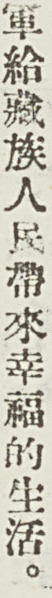軍給藏族人民帶來幸福的生活。
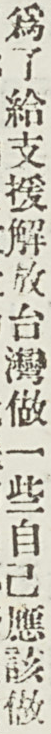爲了給支援解放台灣做一些自己應該做
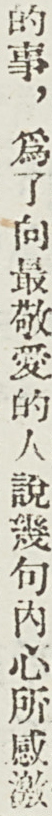的事，爲了向最敬愛的人說幾句內心所感激
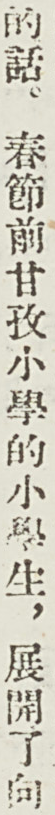的話。春節前甘孜小學的小學生，展開了向
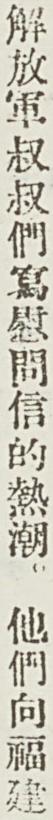解放軍叔叔們寫慰問信的熱潮。他們向福建
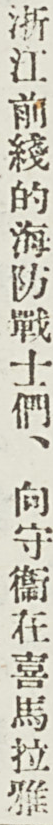浙江前綫的海防戰士們、向守衛在喜馬拉雅
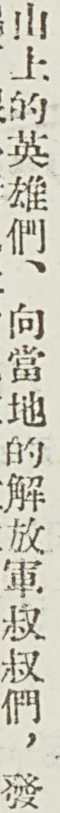山上的英雄們、向當地的解放軍叔叔們，發
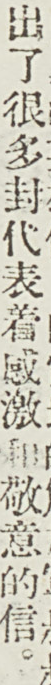出了很多封代表着感激和敬意的信。
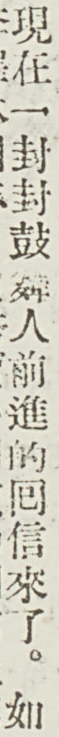現在一封封鼓舞人前進的囘信來了。如
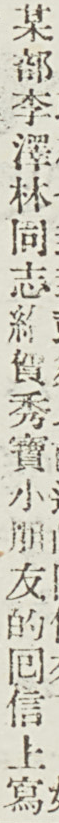某部李澤林同志給賀秀寶小朋友的囘信上寫
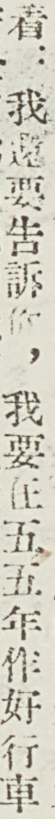着：我還要告訴你，我要在五五年作好行車
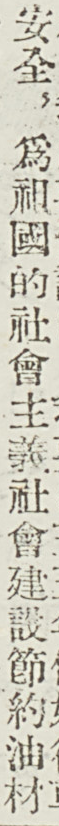安全，爲祖國的社會主義社會建設節約油材
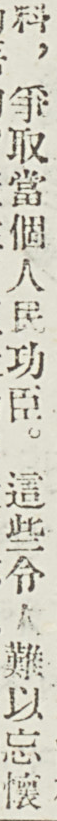料，爭取當個人民功臣。這些令人難以忘懷
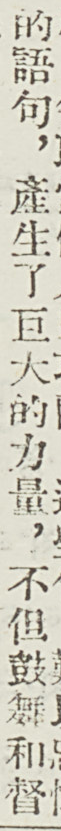的語句，產生了巨大的力量，不但鼓舞和督
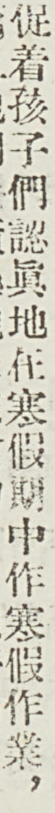促着孩子們認眞地在寒假期中作寒假作業，
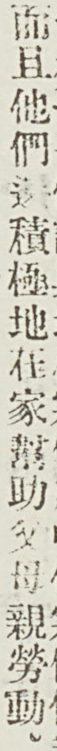而且他們還積極地在家幫助父母親勞動。
